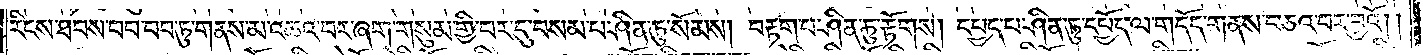རིངས་ཐབས་བབ་བབ་ཏུ་གནས་མ་འཆའ་བར་ཞག་གསུམ་གྱི་བར་དུ་བསམ་པ་ཤིན་ཏུ་སོམས། བརྟག་པ་ཤིན་ཏུ་རྟོགས། དཔྱད་པ་ཤིན་ཏུ་དཔྱོད་ལ་གདོད་གནས་བཅའ་བར་བྱའོ༎
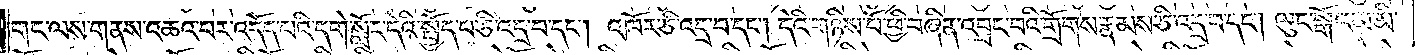གང་ལས་གནས་འཆའ་བར་འདོད་པའི་དགེ་སློང་དེའི་སྤྱོད་པ་ཅི་འདྲ་བ་དང༌། འཁོར་ཅི་འདྲ་བ་དང༌། དེའི་གཉིས་པོ་ཕྱི་བཞིན་འབྲང་བའི་གྲོགས་རྣམས་ཅི་འདྲ་བ་དང༌། ལུང་སྒོའམ་མི་
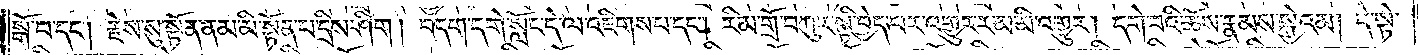སྒོ་བ་དང༌། རྗེས་སུ་སྟོན་ནམ་མི་སྟོན་པ་དྲིས་ཤིག །བདག་དགེ་སློང་དེ་ལ་འཇིགས་པ་དང༌། རིམ་གྲོ་བཀུར་སྟི་བྱེད་པར་འགྱུར་རམ་མི་འགྱུར། དགེ་བའི་ཆོས་རྣམས་སྐྱེའམ། དེ་སྟེ་
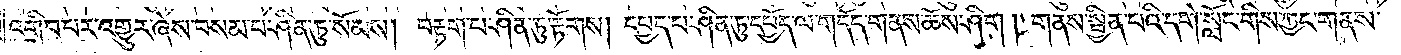འགྲིབ་པར་འགྱུར་ཞེས་བསམ་པ་ཤིན་ཏུ་སོམས། བརྟག་པ་ཤིན་ཏུ་རྟོགས། དཔྱད་པ་ཤིན་ཏུ་དཔྱོད་ལ་གདོད་གནས་ཆོས་ཤིག །གནས་སྦྱིན་པའི་དགེ་སློང་གིས་ཀྱང་གནས་
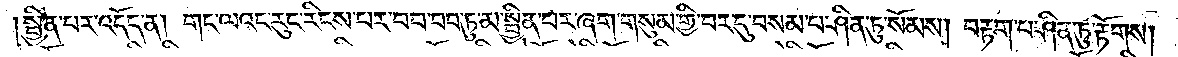སྦྱིན་པར་འདོད་ན། གང་ལའང་རུང་རིངས་པར་བབ་བབ་ཏུ་མ་སྦྱིན་པར་ཞག་གསུམ་གྱི་བར་དུ་བསམ་པ་ཤིན་ཏུ་སོམས། བརྟག་པ་ཤིན་ཏུ་རྟོགས།
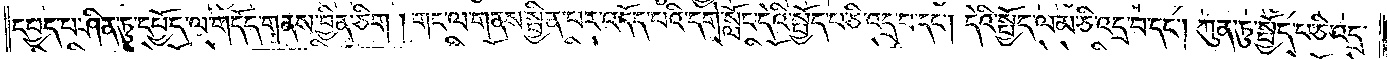དཔྱད་པ་ཤིན་ཏུ་དཔྱོད་ལ་གདོད་གནས་བྱིན་ཅིག །གང་ལ་གནས་སྦྱིན་པར་འདོད་པའི་དགེ་སློང་དེའི་སྤྱོད་པ་ཅི་འདྲ་བ་དང༌། དེའི་སྤྱོད་ལམ་ཅི་འདྲ་བ་དང༌། ཀུན་ཏུ་སྤྱོད་པ་ཅི་འདྲ་
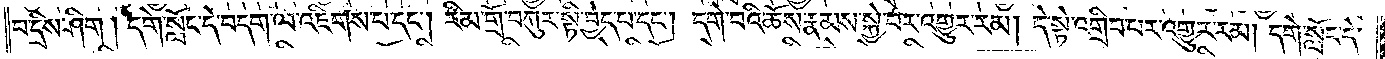པ་དྲིས་ཤིག །དགེ་སློང་དེ་བདག་ལ་འཇིགས་པ་དང༌། རིམ་གྲོ་བཀུར་སྟི་བྱེད་པ་དང༌། དགེ་བའི་ཆོས་རྣམས་སྐྱེ་བར་འགྱུར་རམ། དེ་སྟེ་འགྲིབ་པར་འགྱུར་རམ། དགེ་སློང་དེ་
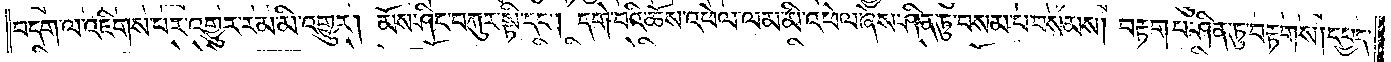བདག་ལ་འཇིགས་པར་འགྱུར་རམ་མི་འགྱུར། མོས་ཤིང་བཀུར་སྟི་དང༌། དགེ་བའི་ཆོས་འཕེལ་ལམ་མི་འཕེལ་ཞེས་ཤིན་ཏུ་བསམ་པ་བསམས། བརྟག་པ་ཤིན་ཏུ་བརྟགས། དཔྱད་
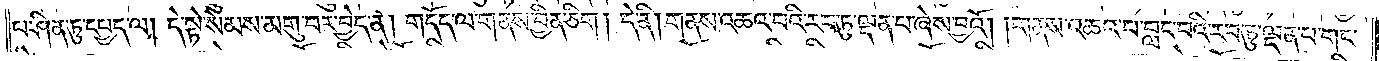པ་ཤིན་ཏུ་དཔྱད་ལ། དེ་སྟེ་སེམས་མགུ་བར་བྱེད་ན། གདོད་ལ་གནས་བྱིན་ཅིག །དེ་ནི། གནས་འཆའ་བའི་རབ་ཏུ་ལྡན་པ་ཞེས་བྱའོ། །གནས་འཆའ་བ་བླང་བའི་རབ་ཏུ་ལྡན་པ་གང་
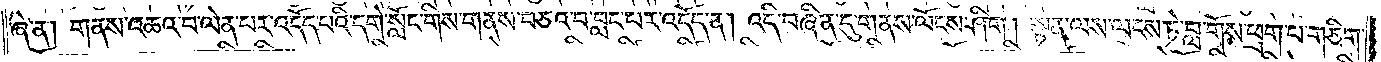ཞེ་ན། གནས་འཆའ་བ་ལེན་པར་འདོད་པའི་དགེ་སློང་གིས་གནས་བཅའ་བ་བླང་བར་འདོད་ན། འདི་བཞིན་དུ་གནས་ལོངས་ཤིག །སྟན་ལས་ལངས་ཏེ་བླ་གོས་ཕྲག་པ་གཅིག་
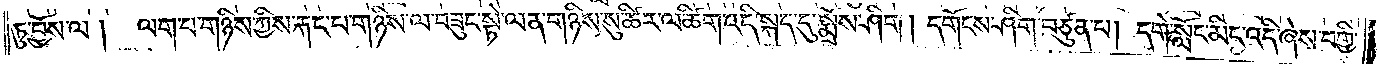ཏུ་བྱོས་ལ། ལག་པ་གཉིས་ཀྱིས་རྐང་པ་གཉིས་ལ་བཟུང་སྟེ་ལན་གཉིས་སུ་ཚིར་ལ་ཚིག་འདི་སྐད་དུ་སྨྲོས་ཤིག །དགོངས་ཤིག་བཙུན་པ། དགེ་སློང་མིང་འདི་ཞེས་བགྱི་
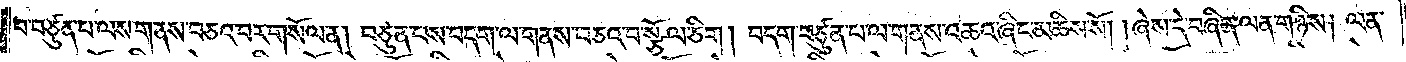བ་བཙུན་པ་ལས་གནས་བཅའ་བར་གསོལ་ན། བཙུན་པས་བདག་ལ་གནས་བཅའ་བ་སྩོལ་ཅིག །བདག་བཙུན་པ་ལ་གནས་འཆའ་ཞིང་མཆིས་སོ། །ཞེས་དེ་བཞིན་ལན་གཉིས། ལན་
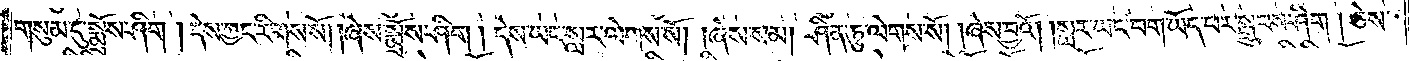གསུམ་དུ་སྨྲོས་ཤིག །དེས་ཀྱང་རིགས་སོ། །ཞེས་སྨྲོས་ཤིག །དེས་ཡང་སླར་ལེགས་སོ། །ཞེས་སམ། ཤིན་ཏུ་ལེགས་སོ། །ཞེས་བྱའོ། །སླར་ཡང་བག་ཡོད་པར་སྒྲུབས་ཤིག །ཅེས་
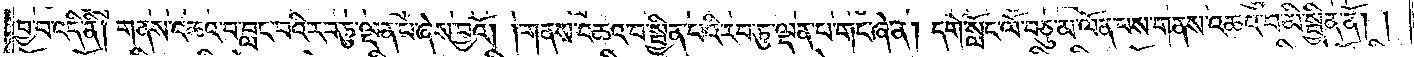བྱ་བ་འདི་ནི། གནས་འཆའ་བ་བླང་བའི་རབ་ཏུ་ལྡན་པ་ཞེས་བྱའོ། །གནས་འཆའ་བ་སྦྱིན་པའི་རབ་ཏུ་ལྡན་པ་གང་ཞེ་ན། དགེ་སློང་ལོ་བཅུ་མ་ལོན་པས་གནས་འཆའ་བ་མི་སྦྱིན་ནོ། །
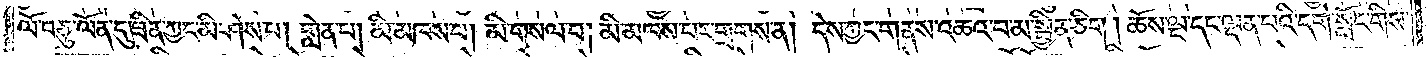ལོ་བཅུ་ལོན་དུ་ཟིན་ཀྱང་མི་ཤེས་པ། གླེན་པ། མི་མཁས་པ། མི་གསལ་བ། མི་མཁས་པར་གྲགས་ན། དེས་ཀྱང་གནས་འཆའ་བ་མ་སྦྱིན་ཅིག །ཆོས་ལྔ་དང་ལྡན་པའི་དགེ་སློང་གིས་
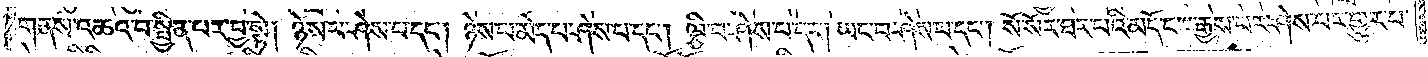གནས་འཆའ་བ་སྦྱིན་པར་བྱ་སྟེ། ཉེས་པ་ཤེས་པ་དང༌། ཉེས་པ་མེད་པ་ཤེས་པ་དང༌། ལྕི་བ་ཤེས་པ་དང༌། ཡང་བ་ཤེས་པ་དང༌། སོ་སོར་ཐར་པའི་མདོ་ང་རྒྱས་པར་ཤེས་པར་གྱུར་པ་
